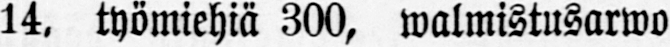14, työmiehiä 300, walmistusarwo
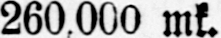260,000 mk.
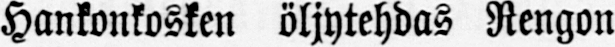Hankonkosken öljytehdas Rengon
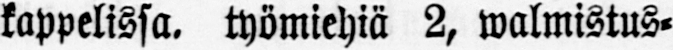kappelissa, työmiehiä 2, walmistus-
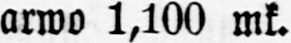arwo 1,100 mk.
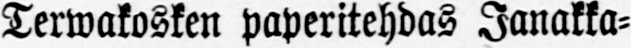Terwakosken paperitehdas Janakka-
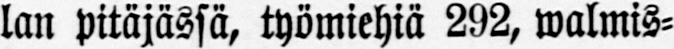lan pitäjässä, työmiehiä 292, walmis-
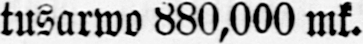tusarwo 880,000 mk.
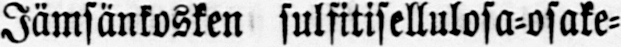Jämsänkosken sulfitisellulosa-osake-
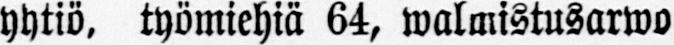yhtiö, työmiehiä 64, walmistusarwo
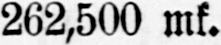262,500 mk.
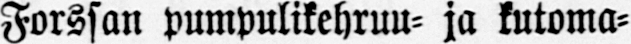Forssan pumpulikehruu- ja kutoma-
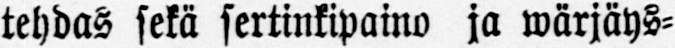tehdas sekä sertinkipaino ja wärjäys-
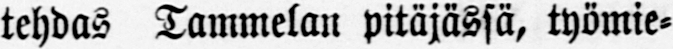tehdas Tammelan pitäjässä, työmie-
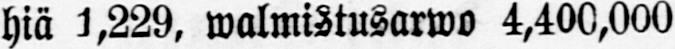hiä 1,229, walmistusarwo 4,400,000
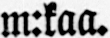m:kaa.
